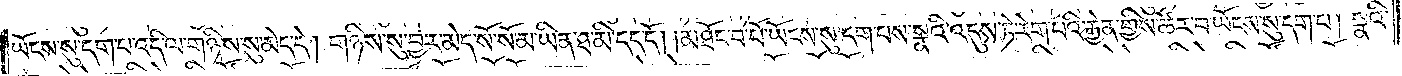ཡོངས་སུ་དག་པ་འདི་ལ་གཉིས་སུ་མེད་དེ། གཉིས་སུ་བྱར་མེད་སོ་སོ་མ་ཡིན་ཐ་མི་དད་དོ། །མཐོང་བ་པོ་ཡོངས་སུ་དག་པས་སྣའི་འདུས་ཏེ་རེག་པའི་རྐྱེན་གྱིས་ཚོར་བ་ཡོངས་སུ་དག་པ། སྣའི་
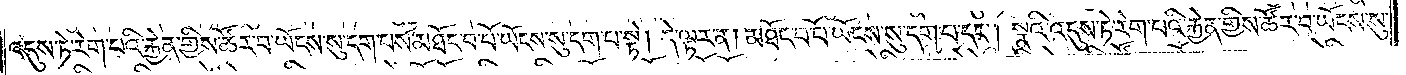འདུས་ཏེ་རེག་པའི་རྐྱེན་གྱིས་ཚོར་བ་ཡོངས་སུ་དག་པས་མཐོང་བ་པོ་ཡོངས་སུ་དག་པ་སྟེ། དེ་ལྟར་ན། མཐོང་བ་པོ་ཡོངས་སུ་དག་པ་དང༌། སྣའི་འདུས་ཏེ་རེག་པའི་རྐྱེན་གྱིས་ཚོར་བ་ཡོངས་སུ་
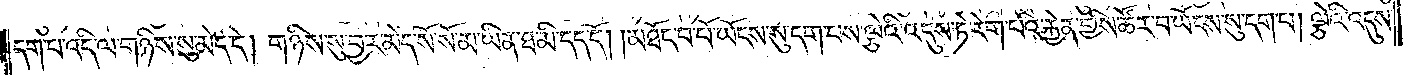དག་པ་འདི་ལ་གཉིས་སུ་མེད་དེ། གཉིས་སུ་བྱར་མེད་སོ་སོ་མ་ཡིན་ཐ་མི་དད་དོ། །མཐོང་བ་པོ་ཡོངས་སུ་དག་པས་ལྕེའི་འདུས་ཏེ་རེག་པའི་རྐྱེན་གྱིས་ཚོར་བ་ཡོངས་སུ་དག་པ། ལྕེའི་འདུས་
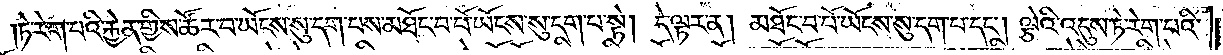ཏེ་རེག་པའི་རྐྱེན་གྱིས་ཚོར་བ་ཡོངས་སུ་དག་པས་མཐོང་བ་པོ་ཡོངས་སུ་དག་པ་སྟེ། དེ་ལྟར་ན། མཐོང་བ་པོ་ཡོངས་སུ་དག་པ་དང༌། ལྕེའི་འདུས་ཏེ་རེག་པའི་
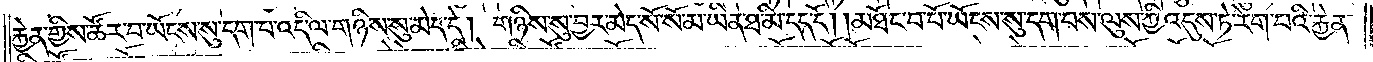རྐྱེན་གྱིས་ཚོར་བ་ཡོངས་སུ་དག་པ་འདི་ལ་གཉིས་སུ་མེད་དེ། གཉིས་སུ་བྱར་མེད་སོ་སོ་མ་ཡིན་ཐ་མི་དད་དོ། །མཐོང་བ་པོ་ཡོངས་སུ་དག་པས་ལུས་ཀྱི་འདུས་ཏེ་རེག་པའི་རྐྱེན་
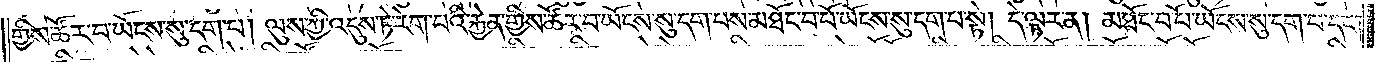གྱིས་ཚོར་བ་ཡོངས་སུ་དག་པ། ལུས་ཀྱི་འདུས་ཏེ་རེག་པའི་རྐྱེན་གྱིས་ཚོར་བ་ཡོངས་སུ་དག་པས་མཐོང་བ་པོ་ཡོངས་སུ་དག་པ་སྟེ། དེ་ལྟར་ན། མཐོང་བ་པོ་ཡོངས་སུ་དག་པ་དང༌།
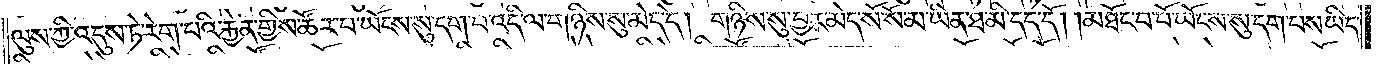ལུས་ཀྱི་འདུས་ཏེ་རེག་པའི་རྐྱེན་གྱིས་ཚོར་བ་ཡོངས་སུ་དག་པ་འདི་ལ་གཉིས་སུ་མེད་དེ། གཉིས་སུ་བྱར་མེད་སོ་སོ་མ་ཡིན་ཐ་མི་དད་དོ། །མཐོང་བ་པོ་ཡོངས་སུ་དག་པས་ཡིད་
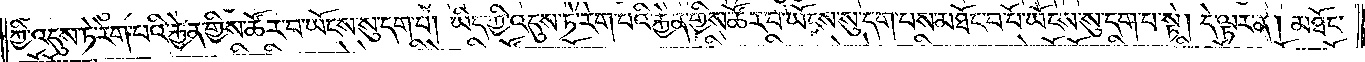ཀྱི་འདུས་ཏེ་རེག་པའི་རྐྱེན་གྱིས་ཚོར་བ་ཡོངས་སུ་དག་པ། ཡིད་ཀྱི་འདུས་ཏེ་རེག་པའི་རྐྱེན་གྱིས་ཚོར་བ་ཡོངས་སུ་དག་པས་མཐོང་བ་པོ་ཡོངས་སུ་དག་པ་སྟེ། དེ་ལྟར་ན། མཐོང་
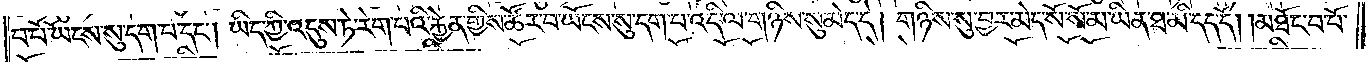བ་པོ་ཡོངས་སུ་དག་པ་དང༌། ཡིད་ཀྱི་འདུས་ཏེ་རེག་པའི་རྐྱེན་གྱིས་ཚོར་བ་ཡོངས་སུ་དག་པ་འདི་ལ་གཉིས་སུ་མེད་དེ། གཉིས་སུ་བྱར་མེད་སོ་སོ་མ་ཡིན་ཐ་མི་དད་དོ། །མཐོང་བ་པོ་
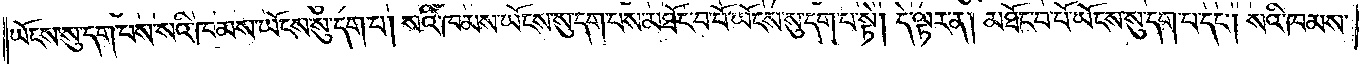ཡོངས་སུ་དག་པས་སའི་ཁམས་ཡོངས་སུ་དག་པ། སའི་ཁམས་ཡོངས་སུ་དག་པས་མཐོང་བ་པོ་ཡོངས་སུ་དག་པ་སྟེ། དེ་ལྟར་ན། མཐོང་བ་པོ་ཡོངས་སུ་དག་པ་དང༌། སའི་ཁམས་
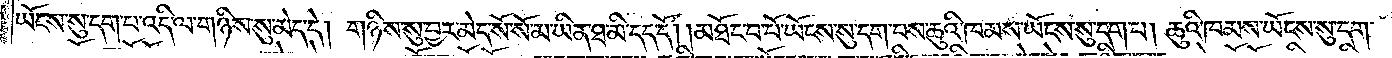ཡོངས་སུ་དག་པ་འདི་ལ་གཉིས་སུ་མེད་དེ། གཉིས་སུ་བྱར་མེད་སོ་སོ་མ་ཡིན་ཐ་མི་དད་དོ། །མཐོང་བ་པོ་ཡོངས་སུ་དག་པས་ཆུའི་ཁམས་ཡོངས་སུ་དག་པ། ཆུའི་ཁམས་ཡོངས་སུ་དག་
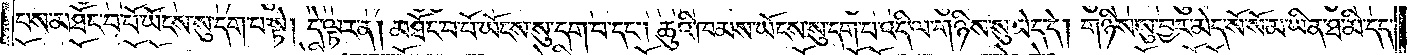པས་མཐོང་བ་པོ་ཡོངས་སུ་དག་པ་སྟེ། དེ་ལྟར་ན། མཐོང་བ་པོ་ཡོངས་སུ་དག་པ་དང༌། ཆུའི་ཁམས་ཡོངས་སུ་དག་པ་འདི་ལ་གཉིས་སུ་མེད་དེ། གཉིས་སུ་བྱར་མེད་སོ་སོ་མ་ཡིན་ཐ་མི་དད་
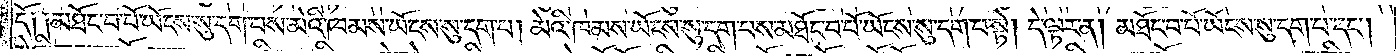དོ༑ ༑མཐོང་བ་པོ་ཡོངས་སུ་དག་པས་མེའི་ཁམས་ཡོངས་སུ་དག་པ། མེའི་ཁམས་ཡོངས་སུ་དག་པས་མཐོང་བ་པོ་ཡོངས་སུ་དག་པ་སྟེ། དེ་ལྟར་ན། མཐོང་བ་པོ་ཡོངས་སུ་དག་པ་དང༌།
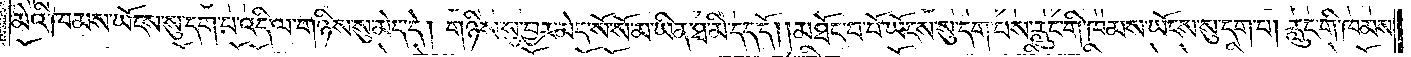མེའི་ཁམས་ཡོངས་སུ་དག་པ་འདི་ལ་གཉིས་སུ་མེད་དེ། གཉིས་སུ་བྱར་མེད་སོ་སོ་མ་ཡིན་ཐ་མི་དད་དོ། །མཐོང་བ་པོ་ཡོངས་སུ་དག་པས་རླུང་གི་ཁམས་ཡོངས་སུ་དག་པ། རླུང་གི་ཁམས་
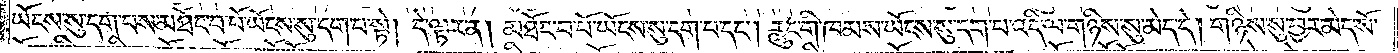ཡོངས་སུ་དག་པས་མཐོང་བ་པོ་ཡོངས་སུ་དག་པ་སྟེ། དེ་ལྟར་ན། མཐོང་བ་པོ་ཡོངས་སུ་དག་པ་དང༌། རླུང་གི་ཁམས་ཡོངས་སུ་དག་པ་འདི་ལ་གཉིས་སུ་མེད་དེ། གཉིས་སུ་བྱར་མེད་སོ་
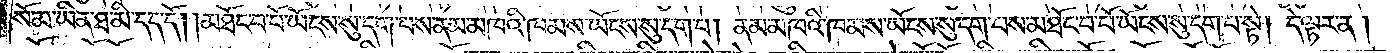སོ་མ་ཡིན་ཐ་མི་དད་དོ། །མཐོང་བ་པོ་ཡོངས་སུ་དག་པས་ནམ་མཁའི་ཁམས་ཡོངས་སུ་དག་པ། ནམ་མཁའི་ཁམས་ཡོངས་སུ་དག་པས་མཐོང་བ་པོ་ཡོངས་སུ་དག་པ་སྟེ། དེ་ལྟར་ན།
